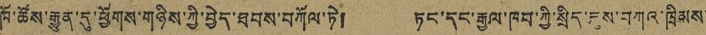ཁོ་ཚོས་རྒྱུན་དུ་ཕྱོགས་གཉིས་ཀྱི་བྱེད་ཐབས་བཀོལ་ཏེ། ཏང་དང་རྒྱལ་ཁབ་ཀྱི་སྲིད་ཇུས་བཀའ་ཁྲིམས་
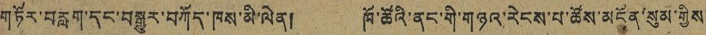གཏོར་བརླག་དང་བསྒྱུར་བཀོད་ཁས་མི་ལེན། ཁོ་ཚོའི་ནང་གི་གཉའ་རེངས་པ་ཚོས་མངོན་སུམ་གྱིས་
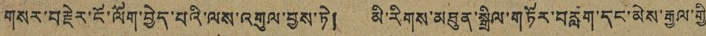གསར་བརྗེར་ངོ་ལོག་བྱེད་པའི་ལས་འགུལ་བྱས་ཏེ། མི་རིགས་མཐུན་སྒྲིལ་གཏོར་བརླག་དང་མེས་རྒྱལ་གྱི་
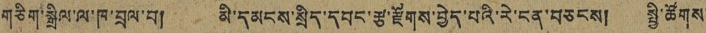གཅིག་སྒྲིལ་ལ་ཁ་བྲལ་བ། མི་དམངས་སྲིད་དབང་རྩ་རྫོགས་བྱེད་པའི་རེ་ངན་བཅངས། སྤྱི་ཚོགས་
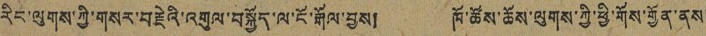རིང་ལུགས་ཀྱི་གསར་བརྗེའི་འགུལ་བསྐྱོད་ལ་ངོ་རྒོལ་བྱས། ཁོ་ཚོས་ཆོས་ལུགས་ཀྱི་ཕྱི་གོས་གྱོན་ནས་
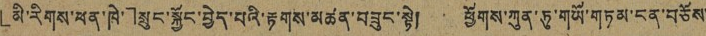「མི་རིགས་ཕན་ཁེ་」སྲུང་སྐྱོང་བྱེད་པའི་རྟགས་མཚན་བཟུང་སྟེ། ཕྱོགས་ཀུན་ཏུ་གཡོ་གཏམ་ངན་བཅོས་
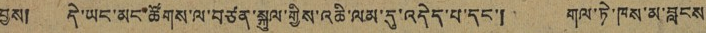བྱས། དེ་ཡང་མང་ཚོགས་ལ་བཙན་སྐུལ་གྱིས་འཆི་ལམ་དུ་འདེད་པ་དང་། གལ་ཏེ་ཁས་མ་བླངས་
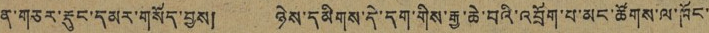ན་གཅར་རྡུང་དམར་གསོད་བྱས། ཉེས་དམིགས་དེ་དག་གིས་རྒྱ་ཆེ་བའི་འབྲོག་པ་མང་ཚོགས་ལ་ཁོང་
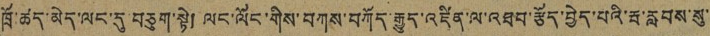ཁྲོ་ཚད་མེད་ལང་དུ བཅུག་སྟེ། ལང་ལོང་གིས་བཀས་བཀོད་རྒྱུད་འཛིན་ལ་འཐབ་རྩོད་བྱེད་པའི་རྦ་རླབས་སུ་
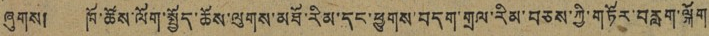ཞུགས། ཁོ་ཚོས་ལོག་སྤྱོད་ཆོས་ལུགས་མཐོ་རིམ་དང་ཕྱུགས་བདག་གྲལ་རིམ་བཅས་ཀྱི་གཏོར་བརླག་ལྐོག
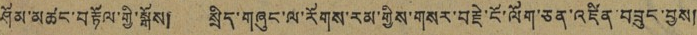ཤོམ་མཚར་བརྟོལ་གྱི་སྒོས། སྲིད་གཞུང་ལ་རོགས་རམ་གྱིས་གསར་བརྗེ་ངོ་ལོག་ཅན་འཛིན་བཟུང་བྱས།
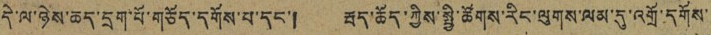དེ་ལ་ཉེས་ཆད་དྲག་པོ་གཅོད་དགོས་པ་དང་། རྦད་ཆོད་ཀྱིས་སྤྱི་ཚོགས་རིང་ལུགས་ལམ་དུ་འགྲོ་དགོས་
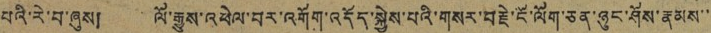པའི་རེ་བ་ཞུས། ལོ་རྒྱུས་འཕེལ་བར་འགོག་འདོད་སྐྱེས་པའི་གསར་བརྗེ་ངོ་ལོག་ཅན་ཉུང་ཤོས་རྣམས་་
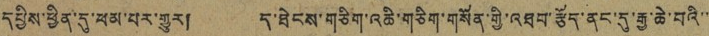དཔྱིས་ཕྱིན་དུ་ཕམ་པར་གྱུར། ད་ཐེངས་གཅིག་འཆི་གཅིག་གསོན་གྱི་འཐབ་རྩོད་ནང་དུ་རྒྱ་ཆེ་བའི་་
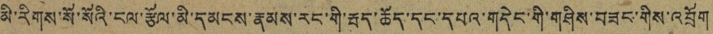མི་རིགས་སོ་སོའི་ངལ་རྩོལ་མི་དམངས་རྣམས་རང་གི་རྦད་ཆོད་དང་དཔའ་གདེང་གི་གཤིས་བཟང་གིས་འབྲོག
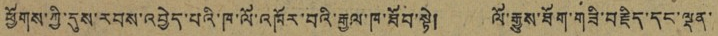ཕྱོགས་ཀྱི་དུས་རབས་འབྱེད་པའི་ཁ་ལོ་འཁོར་བའི་རྒྱལ་ཁ་ཐོབ་སྟེ། ལོ་རྒྱུས་ཐོག་གཟི་བརྗིད་དང་ལྡན་
